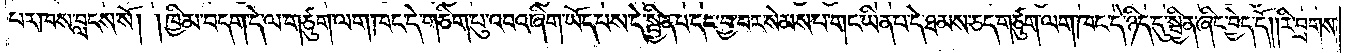པར་ཁས་བླངས་སོ། །ཁྱིམ་བདག་དེ་ལ་གཙུག་ལག་ཁང་དེ་གཅིག་པུ་འབའ་ཞིག་ཡོད་པས་དེ་སྦྱིན་པ་དང་བྱ་བར་སེམས་པ་གང་ཡིན་པ་དེ་ཐམས་ཅད་གཙུག་ལག་ཁང་དེ་ཉིད་དུ་སྦྱིན་ཞིང་བྱེད་དོ། །རི་བྲགས་
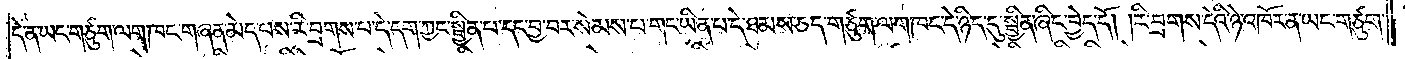དེ་ན་ཡང་གཙུག་ལག་ཁང་གཞན་མེད་པས་རི་བྲགས་པ་དེ་དག་ཀྱང་སྦྱིན་པ་དང་བྱ་བར་སེམས་པ་གང་ཡིན་པ་དེ་ཐམས་ཅད་གཙུག་ལག་ཁང་དེ་ཉིད་དུ་སྦྱིན་ཞིང་བྱེད་དོ། །རི་བྲགས་དེའི་ཉེ་འཁོར་ན་ཡང་གཙུག་
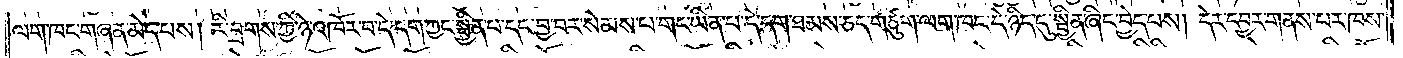ལག་ཁང་གཞན་མེད་པས། རི་བྲགས་ཀྱི་ཉེ་འཁོར་བ་དེ་དག་ཀྱང་སྦྱིན་པ་དང་བྱ་བར་སེམས་པ་གང་ཡིན་པ་དེ་དག་ཐམས་ཅད་གཙུག་ལག་ཁང་དེ་ཉིད་དུ་སྦྱིན་ཞིང་བྱེད་པས། དེར་དབྱར་གནས་པར་ཁས་
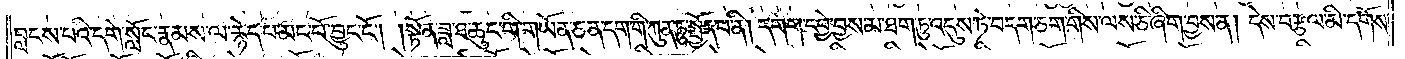བླངས་པའི་དགེ་སློང་རྣམས་ལ་རྙེད་པ་མང་པོ་བྱུང་ངོ༌། །སྟོན་ཟླ་ཐ་ཆུང་གི་གཡོན་ཅན་དག་གི་ཀུན་ཏུ་སྤྱོད་པ་ནི། དགག་དབྱེ་བྱས་མ་ཐག་ཏུ་འདུས་ཏེ་བདག་ཅག་གིས་ལས་ཅི་ཞིག་བྱས་ན། དེས་བརྩལ་མི་དགོས་
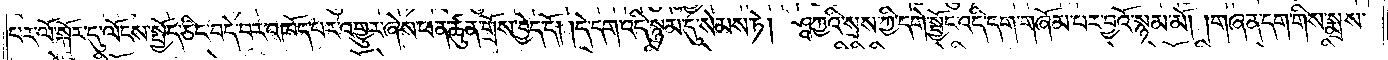པར་ལོ་སྐོར་དུ་ལོངས་སྤྱོད་ཅིང་བདེ་བར་འཁོད་པར་འགྱུར་ཞེས་ཕན་ཚུན་གྲོས་བྱེད་དོ། །དེ་དག་འདི་སྙམ་དུ་སེམས་ཏེ། ཤཱཀྱའི་སྲས་ཀྱི་དགེ་སྦྱོང་འདི་དག་གཞོམ་པར་བྱའོ་སྙམ་མོ། །གཞན་དག་གིས་སྨྲས་
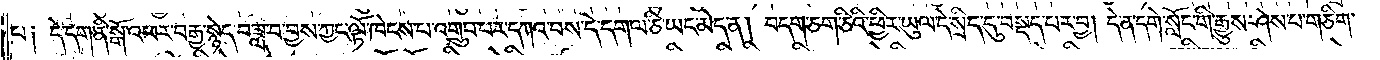པ༑ དེ་དག་ནི་སྒོ་འཕར་བརྒྱ་སྙེད་བཟླ་བ་བྱས་ཀྱང་ལྟོ་ཁེངས་པ་འགྲུབ་པར་དཀའ་བས་དེ་དག་ལ་ཅི་ཡང་མེད་ན། བདག་ཅག་ཅིའི་ཕྱིར་ཡུལ་དེ་སྲིད་དུ་བསྡད་པར་བྱ། དེ་ན་དགེ་སློང་གི་རྒྱུས་ཤེས་པ་གཅིག་
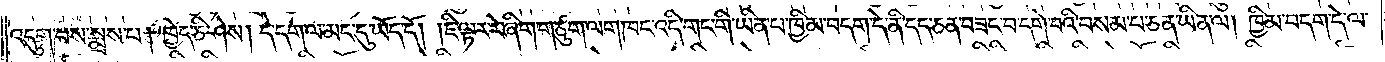འདུག་པས་སྨྲས་པ། ཁྱེད་ཅི་ཤེས། དེ་དག་ལ་མང་དུ་ཡོད་དོ། །ཇི་ལྟར་རེ་ཞིག་གཙུག་ལག་ཁང་འདི་གང་གི་ཡིན་པ་ཁྱིམ་བདག་དེ་ནི་དད་ཅན་བཟང་བ་དགེ་བའི་བསམ་པ་ཅན་ཡིན་ལ། ཁྱིམ་བདག་དེ་ལ་
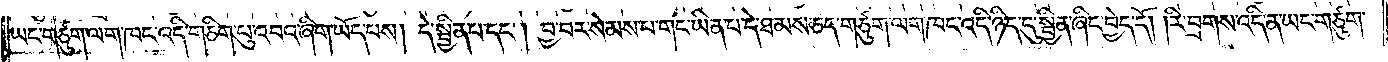ཡང་གཙུག་ལག་ཁང་འདི་གཅིག་པུ་འབའ་ཞིག་ཡོད་པས། དེ་སྦྱིན་པ་དང༌། བྱ་བར་སེམས་པ་གང་ཡིན་པ་དེ་ཐམས་ཅད་གཙུག་ལག་ཁང་འདི་ཉིད་དུ་སྦྱིན་ཞིང་བྱེད་དོ། །རི་བྲགས་འདི་ན་ཡང་གཙུག་
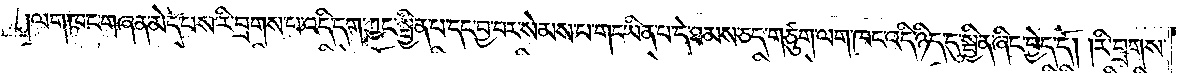ལག་ཁང་གཞན་མེད་པས་རི་བྲགས་པ་འདི་དག་ཀྱང་སྦྱིན་པ་དང་བྱ་བར་སེམས་པ་གང་ཡིན་པ་དེ་ཐམས་ཅད་གཙུག་ལག་ཁང་འདི་ཉིད་དུ་སྦྱིན་ཞིང་བྱེད་དོ། །རི་བྲགས་
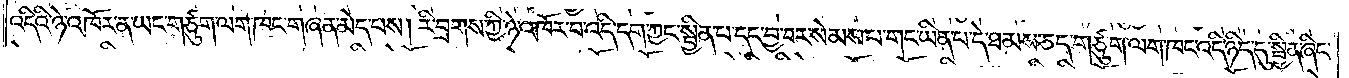འདིའི་ཉེ་འཁོར་ན་ཡང་གཙུག་ལག་ཁང་གཞན་མེད་པས། རི་བྲགས་ཀྱི་ཉེ་འཁོར་བ་འདི་དག་ཀྱང་སྦྱིན་པ་དང་བྱ་བར་སེམས་པ་གང་ཡིན་པ་དེ་ཐམས་ཅད་གཙུག་ལག་ཁང་འདི་ཉིད་དུ་སྦྱིན་ཞིང་
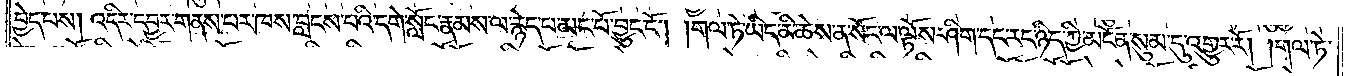བྱེད་པས། འདིར་དབྱར་གནས་པར་ཁས་བླངས་པའི་དགེ་སློང་རྣམས་ལ་རྙེད་པ་མང་པོ་བྱུང་ངོ༌། །གལ་ཏེ་ཡིད་མི་ཆེས་ན་སོང་ལ་ལྟོས་ཤིག་དང་རང་ཉིད་ཀྱི་མངོན་སུམ་དུ་འགྱུར་རོ། །གལ་ཏེ་
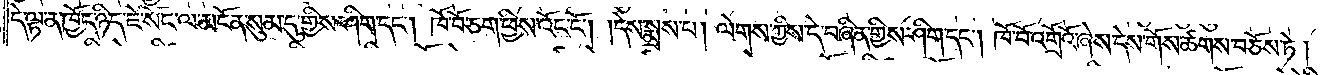དེ་ལྟ་ན་ཁྱོད་ཉིད་ཇེ་སོང་ལ་མངོན་སུམ་དུ་གྱིས་ཤིག་དང༌། ཁོ་བོ་ཅག་ཕྱིས་འོང་ངོ༌། །དེས་སྨྲས་པ། ལེགས་ཀྱིས་དེ་བཞིན་གྱིས་ཤིག་དང༌། ཁོ་བོ་འགྲོའོ་ཞེས་དེས་གོས་ཚགས་བཅོས་ཏེ།
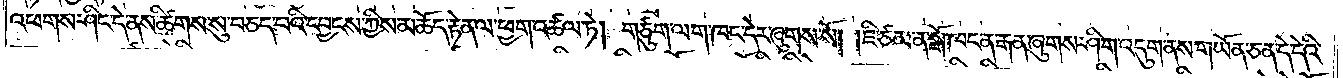འཕགས་ཤིང་དེ་ནས་ཚིགས་སུ་བཅད་པའི་དབྱངས་ཀྱིས་མཆོད་རྟེན་ལ་ཕྱག་འཚལ་ཏེ། གཙུག་ལག་ཁང་དེར་ཞུགས་སོ། །ཇི་ཙམ་ན་སྒོ་ཁང་ན་རྒན་ཞུགས་ཤིག་འདུག་ནས་གཡོན་ཅན་དེ་དེའི་
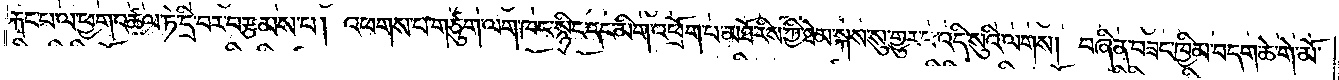རྐང་པ་ལ་ཕྱག་འཚལ་ཏེ་དྲི་བར་བརྩམས་པ། འཕགས་པ་གཙུག་ལག་ཁང་སྙིང་དང་མིག་འཕྲོག་པ་མཐོ་རིས་ཀྱི་ཐེམ་སྐས་སུ་གྱུར་པ་འདི་སུའི་ལགས། བཞིན་བཟང་ཁྱིམ་བདག་ཆེ་གེ་མོ་
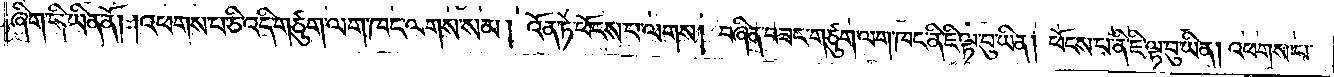ཞིག་གི་ཡིན་ནོ། །འཕགས་པ་ཅི་འདི་གཙུག་ལག་ཁང་ལགས་སམ། འོན་ཏེ་ཕོངས་པ་ལགས། བཞིན་བཟང་གཙུག་ལག་ཁང་ནི་ཇི་ལྟ་བུ་ཡིན། ཕོངས་པ་ནི་ཇི་ལྟ་བུ་ཡིན། འཕགས་པ་
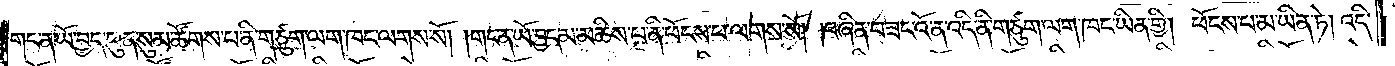གང་ན་ཡོ་བྱད་ཕུན་སུམ་ཚོགས་པ་ནི་གཙུག་ལག་ཁང་ལགས་སོ། །གང་ན་ཡོ་བྱད་མ་མཆིས་པ་ནི་ཕོངས་པ་ལགས་སོ། །བཞིན་བཟང་འོ་ན་འདི་ནི་གཙུག་ལག་ཁང་ཡིན་གྱི། ཕོངས་པ་མ་ཡིན་ཏེ། འདི་
